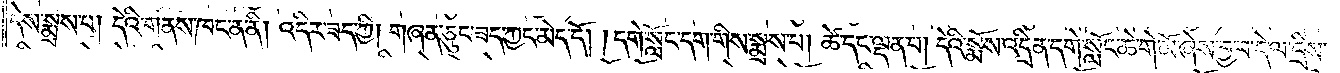དེས་སྨྲས་པ། དེའི་གནས་ཁང་ན་ནི། འདིར་ཟད་ཀྱི། གཞན་ཅུང་ཟད་ཀྱང་མེད་དོ། །དགེ་སློང་དག་གིས་སྨྲས་པ། ཚེ་དང་ལྡན་པ། དེའི་སྨོས་འདྲིན་དགེ་སློང་ཆེ་གེ་མོ་ཞེས་བྱ་བ་དེ་ལ་དྲིས་
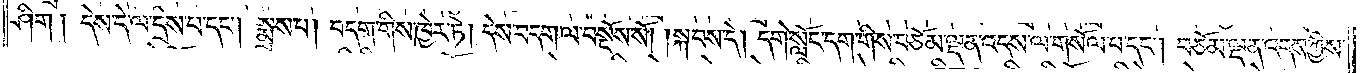ཤིག། དེས་དེ་ལ་དྲིས་པ་དང༌། སྨྲས་པ། བདག་གིས་ཁྱེར་ཏེ། དེས་བདག་ལ་བསྔོས་སོ། །སྐབས་དེ། དགེ་སློང་དག་གིས་བཅོམ་ལྡན་འདས་ལ་གསོལ་པ་དང༌། བཅོམ་ལྡན་འདས་ཀྱིས་
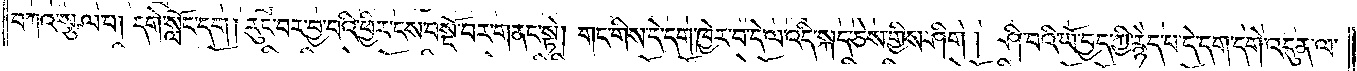བཀའ་སྩལ་པ། དགེ་སློང་དག། རུང་བར་བྱ་བའི་ཕྱིར་ངས་བསྔོ་བར་གནང་སྟེ། གང་གིས་དེ་དག་ཁྱེར་བ་དེ་ལ་འདི་སྐད་ཅེས་གྱིས་ཤིག། ཤི་བའི་ཡོ་བྱད་ཀྱི་རྙེད་པ་དེ་དག་དགེ་འདུན་ལ་
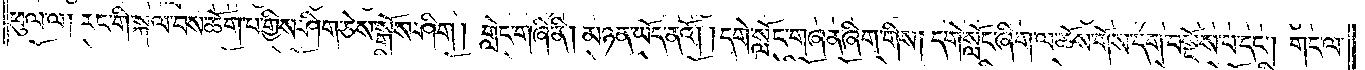ཕུལ་ལ། རང་གི་སྐལ་བས་ཆོག་པ་གྱིས་ཤིག་ཅེས་སྒོས་ཤིག། གླེང་གཞི་ནི། མཉན་ཡོད་ནའོ། །དགེ་སློང་གཞན་ཞིག་གིས། དགེ་སློང་ཞིག་ལ་ཆོས་གོས་དག་བསྔོས་པ་དང༌། གང་ལ་
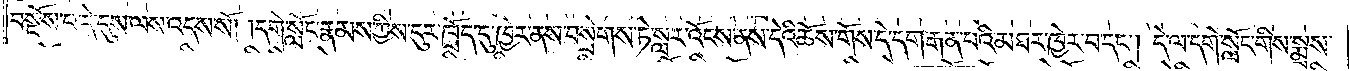བསྔོས་པ་དེ་དུས་ལས་འདས་སོ། །དགེ་སློང་རྣམས་ཀྱིས་ངུར་ཁྲོད་དུ་ཁྱེར་ནས་བསྲེགས་ཏེ་སླར་འོངས་ནས་དེའི་ཆོས་གོས་དེ་དག་རྒན་པའི་མཐར་ཁྱེར་བ་དང༌། དེ་ལ་དགེ་སློང་གིས་སྨྲས་
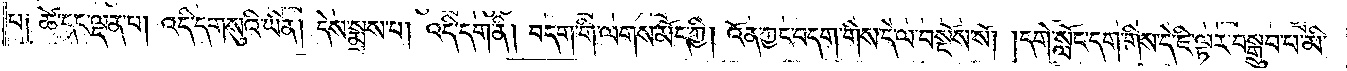པ༑ ཚེ་དང་ལྡན་པ། འདི་དག་སུའི་ཡིན། དེས་སྨྲས་པ། འདི་དག་ནི། བདག་གི་ལགས་མོད་ཀྱི། འོན་ཀྱང་བདག་གིས་དེ་ལ་བསྔོས་སོ། །དགེ་སློང་དག་གིས་དེ་ཇི་ལྟར་བསྒྲུབ་པ་མི་
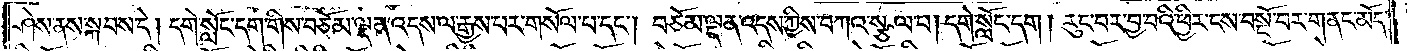ཤེས་ནས་སྐབས་དེ། དགེ་སློང་དག་གིས་བཅོམ་ལྡན་འདས་ལ་རྒྱས་པར་གསོལ་པ་དང༌། བཅོམ་ལྡན་འདས་ཀྱིས་བཀའ་སྩལ་པ། དགེ་སློང་དག། རུང་བར་བྱ་བའི་ཕྱིར་ངས་བསྔོ་བར་གནང་མོད་
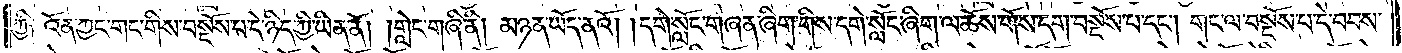ཀྱི༑ འོན་ཀྱང་གང་གིས་བསྔོས་པ་དེ་ཉིད་ཀྱི་ཡིན་ནོ། །གླེང་གཞི་ནི། མཉན་ཡོད་ནའོ། །དགེ་སློང་གཞན་ཞིག་གིས་དགེ་སློང་ཞིག་ལ་ཆོས་གོས་དག་བསྔོས་པ་དང༌། གང་ལ་བསྔོས་པ་དེ་བབས་
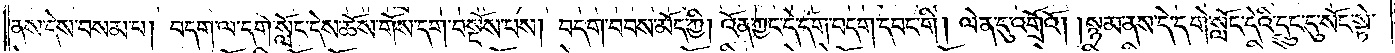ནས་དེས་བསམ་པ། བདག་ལ་དགེ་སློང་དེས་ཆོས་གོས་དག་བསྔོས་པས། བདག་བབས་མོད་ཀྱི། འོན་ཀྱང་དེ་དག་བདག་དབང་གི། ལེན་དུ་འགྲོའོ། །སྙམ་ནས་དེ་དགེ་སློང་དེའི་དྲུང་དུ་སོང་སྟེ་
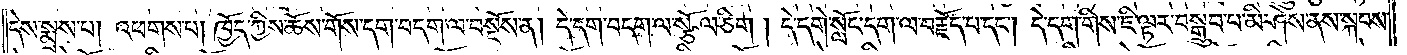དེས་སྨྲས་པ། འཕགས་པ། ཁྱོད་ཀྱིས་ཆོས་གོས་དག་བདག་ལ་བསྔོས་ན། དེ་དག་བདག་ལ་སྩོལ་ཅིག། དེ་དགེ་སློང་དག་ལ་བརྗོད་པ་དང༌། དེ་དག་གིས་ཇི་ལྟར་བསྒྲུབ་པ་མི་ཤེས་ནས་སྐབས་
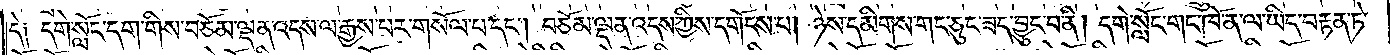དེ༑ དགེ་སློང་དག་གིས་བཅོམ་ལྡན་འདས་ལ་རྒྱས་པར་གསོལ་པ་དང༌། བཅོམ་ལྡན་འདས་ཀྱིས་དགོངས་པ། ཉེས་དམིགས་གང་ཅུང་ཟད་བྱུང་བ་ནི། དགེ་སློང་གང་ཁོ་ན་ལ་ཡིད་བརྟན་ཏེ་
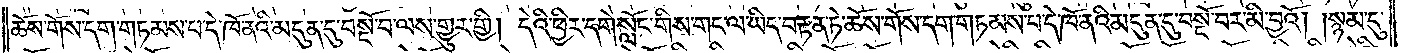ཆོས་གོས་དག་གཏམས་པ་དེ་ཁོ་ནའི་མདུན་དུ་བསྔོ་བ་ལས་གྱུར་གྱི། དེའི་ཕྱིར་དགེ་སློང་གིས་གང་ལ་ཡིད་བརྟན་ཏེ་ཆོས་གོས་དག་གཏམས་པ་དེ་ཁོ་ནའི་མདུན་དུ་བསྔོ་བར་མི་བྱའོ། །སྙམ་དུ་
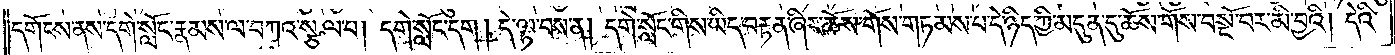དགོངས་ནས་དགེ་སློང་རྣམས་ལ་བཀའ་སྩལ་པ། དགེ་སློང་དག། དེ་ལྟ་བས་ན། དགེ་སློང་གིས་ཡིད་བརྟན་ཞིང་ཆོས་གོས་གཏམས་པ་དེ་ཉིད་ཀྱི་མདུན་དུ་ཆོས་གོས་བསྔོ་བར་མི་བྱའི། དེའི་
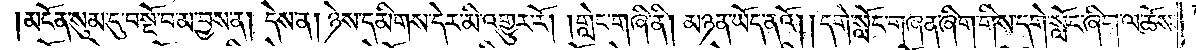མངོན་སུམ་དུ་བསྔོ་བ་མ་བྱས་ན། དེས་ན། ཉེས་དམིགས་དེར་མི་འགྱུར་རོ། །གླེང་གཞི་ནི། མཉན་ཡོད་ནའོ། །དགེ་སློང་གཞན་ཞིག་གིས་དགེ་སློང་ཞིག་ལ་ཆོས་
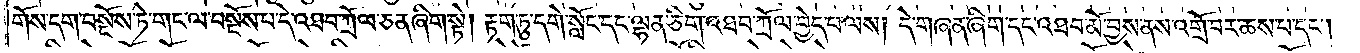གོས་དག་བསྔོས་ཏེ་གང་ལ་བསྔོས་པ་དེ་འཐབ་ཀྲོལ་ཅན་ཞིག་སྟེ། རྟག་ཏུ་དགེ་སློང་དང་ལྷན་ཅིག་འཐབ་ཀྲོལ་བྱེད་པ་ལས། དེ་གཞན་ཞིག་དང་འཐབ་མོ་བྱས་ནས་འགྲོ་བར་ཆས་པ་དང༌།
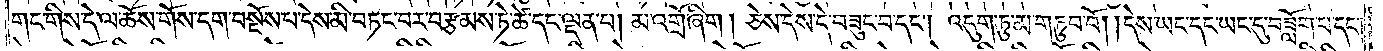གང་གིས་དེ་ལ་ཆོས་གོས་དག་བསྔོས་པ་དེས་མི་བཏང་བར་བརྩམས་ཏེ་ཚེ་དང་ལྡན་པ། མ་འགྲོ་ཞིག། ཅེས་དེས་དེ་བཟུང་བ་དང༌། འདུག་ཏུ་མ་གཏུབ་བོ། །དེས་ཡང་དང་ཡང་དུ་བཟློག་པ་དང༌།
